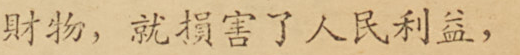財物，就損害了人民利益，
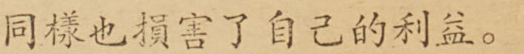同樣也損害了自己的利益。
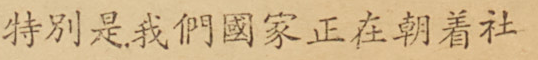特別是我們國家正在朝着社
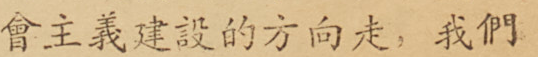會主義建設的方向走，我們
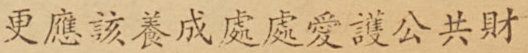更應該養成處處愛護公共財
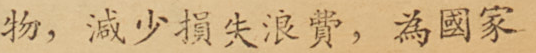物，減少損失浪費，為國家
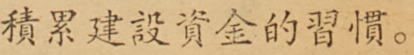積累建設資金的習慣。
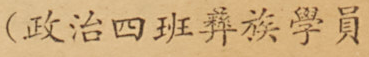（政治四班彝族學員
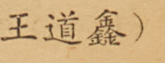王道鑫）
